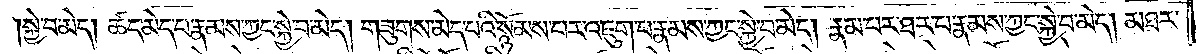སྐྱེ་བ་མེད། ཚད་མེད་པ་རྣམས་ཀྱང་སྐྱེ་བ་མེད། གཟུགས་མེད་པའི་སྙོམས་པར་འཇུག་པ་རྣམས་ཀྱང་སྐྱེ་བ་མེད། རྣམ་པར་ཐར་པ་རྣམས་ཀྱང་སྐྱེ་བ་མེད། མཐར་
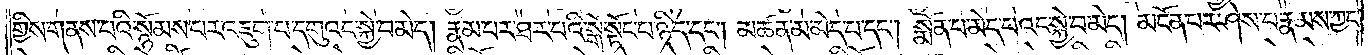གྱིས་གནས་པའི་སྙོམས་པར་འཇུག་པ་དགུའང་སྐྱེ་བ་མེད། རྣམ་པར་ཐར་པའི་སྒོ་སྟོང་པ་ཉིད་དང༌། མཚན་མ་མེད་པ་དང༌། སྨོན་པ་མེད་པའང་སྐྱེ་བ་མེད། མངོན་པར་ཤེས་པ་རྣམས་ཀྱང་
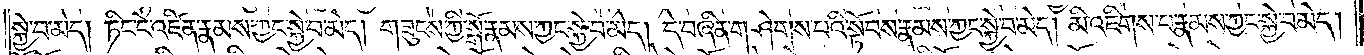སྐྱེ་བ་མེད། ཏིང་ངེ་འཛིན་རྣམས་ཀྱང་སྐྱེ་བ་མེད། གཟུངས་ཀྱི་སྒོ་རྣམས་ཀྱང་སྐྱེ་བ་མེད། དེ་བཞིན་གཤེགས་པའི་སྟོབས་རྣམས་ཀྱང་སྐྱེ་བ་མེད། མི་འཇིགས་པ་རྣམས་ཀྱང་སྐྱེ་བ་མེད།
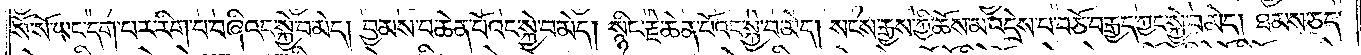སོ་སོ་ཡང་དག་པར་རིག་པ་བཞིའང་སྐྱེ་བ་མེད། བྱམས་པ་ཆེན་པོའང་སྐྱེ་བ་མེད། སྙིང་རྗེ་ཆེན་པོའང་སྐྱེ་བ་མེད། སངས་རྒྱས་ཀྱི་ཆོས་མ་འདྲེས་པ་བཅོ་བརྒྱད་ཀྱང་སྐྱེ་བ་མེད། ཐམས་ཅད་
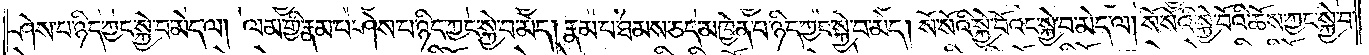ཤེས་པ་ཉིད་ཀྱང་སྐྱེ་བ་མེད་ལ། ལམ་གྱི་རྣམ་པ་ཤེས་པ་ཉིད་ཀྱང་སྐྱེ་བ་མེད་རྣམ་པ་ཐམས་ཅད་མཁྱེན་པ་ཉིད་ཀྱང་སྐྱེ་བ་མེད། སོ་སོའི་སྐྱེ་བོའང་སྐྱེ་བ་མེད་ལ། སོ་སོའི་སྐྱེ་བོའི་ཆོས་ཀྱང་སྐྱེ་བ་
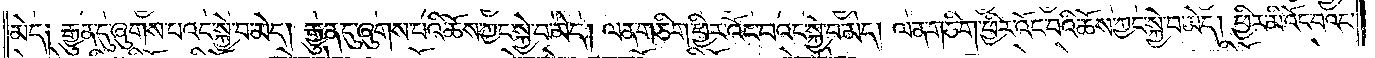མེད༏ རྒྱུན་དུ་ཞུགས་པའང་སྐྱེ་བ་མེད། རྒྱུན་དུ་ཞུགས་པའི་ཆོས་ཀྱང་སྐྱེ་བ་མེད། ལན་ཅིག་ཕྱིར་འོང་བའང་སྐྱེ་བ་མེད། ལན་ཅིག་ཕྱིར་འོང་བའི་ཆོས་ཀྱང་སྐྱེ་བ་མེད། ཕྱིར་མི་འོང་བའང་
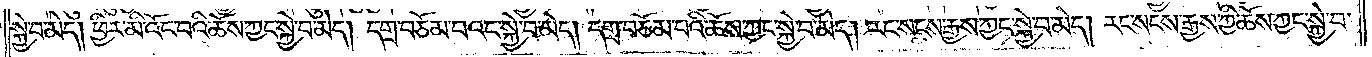སྐྱེ་བ་མེད། ཕྱིར་མི་འོང་བའི་ཆོས་ཀྱང་སྐྱེ་བ་མེད། དགྲ་བཅོམ་པའང་སྐྱེ་བ་མེད། དགྲ་བཅོམ་པའི་ཆོས་ཀྱང་སྐྱེ་བ་མེད། རང་སངས་རྒྱས་ཀྱང་སྐྱེ་བ་མེད། རང་སངས་རྒྱས་ཀྱི་ཆོས་ཀྱང་སྐྱེ་བ་
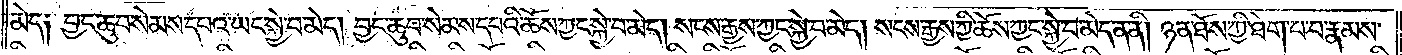མེད༏ བྱང་ཆུབ་སེམས་དཔའ་ཡང་སྐྱེ་བ་མེད། བྱང་ཆུབ་སེམས་དཔའི་ཆོས་ཀྱང་སྐྱེ་བ་མེད། སངས་རྒྱས་ཀྱང་སྐྱེ་བ་མེད། སངས་རྒྱས་ཀྱི་ཆོས་ཀྱང་སྐྱེ་བ་མེད་ན་ནི། ཉན་ཐོས་ཀྱི་ཐེག་པ་པ་རྣམས་
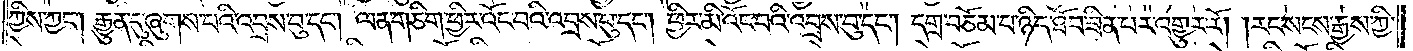ཀྱིས་ཀྱང༌། རྒྱུན་དུ་ཞུགས་པའི་འབྲས་བུ་དང༌། ལན་ཅིག་ཕྱིར་འོང་བའི་འབྲས་བུ་དང༌། ཕྱིར་མི་འོང་བའི་འབྲས་བུ་དང༌། དགྲ་བཅོམ་པ་ཉིད་ཐོབ་ཟིན་པར་འགྱུར་རོ། །རང་སངས་རྒྱས་ཀྱི་
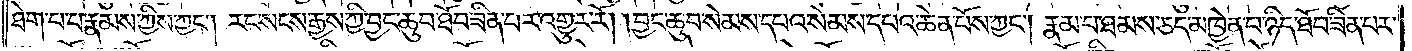ཐེག་པ་པ་རྣམས་ཀྱིས་ཀྱང༌། རང་སངས་རྒྱས་ཀྱི་བྱང་ཆུབ་ཐོབ་ཟིན་པར་འགྱུར་རོ། །བྱང་ཆུབ་སེམས་དཔའ་སེམས་དཔའ་ཆེན་པོས་ཀྱང༌། རྣམ་པ་ཐམས་ཅད་མཁྱེན་པ་ཉིད་ཐོབ་ཟིན་པར་
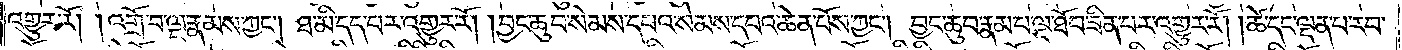འགྱུར་རོ། །འགྲོ་བ་ལྔ་རྣམས་ཀྱང༌། ཐ་མི་དད་པར་འགྱུར་རོ། །བྱང་ཆུབ་སེམས་དཔའ་སེམས་དཔའ་ཆེན་པོས་ཀྱང༌། བྱང་ཆུབ་རྣམ་པ་ལྔ་ཐོབ་ཟིན་པར་འགྱུར་རོ། །ཚེ་དང་ལྡན་པ་རབ་
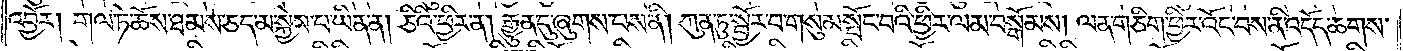འབྱོར། གལ་ཏེ་ཆོས་ཐམས་ཅད་མ་སྐྱེས་པ་ཡིན་ན། ཅིའི་ཕྱིར་ན། རྒྱུན་དུ་ཞུགས་པས་ནི། ཀུན་ཏུ་སྦྱོར་བ་གསུམ་སྤོང་བའི་ཕྱིར་ལམ་བསྒོམས། ལན་ཅིག་ཕྱིར་འོང་བས་ནི་འདོད་ཆགས་
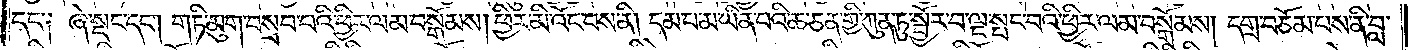དང༌༏ ཞེ་སྡང་དང༌། གཏི་མུག་བསྲབ་པའི་ཕྱིར་ལམ་བསྒོམས། ཕྱིར་མི་འོང་བས་ནི། དམ་པ་མ་ཡིན་པའི་ཆ་ཅན་གྱི་ཀུན་ཏུ་སྦྱོར་བ་ལྔ་སྤང་བའི་ཕྱིར་ལམ་བསྒོམས། དགྲ་བཅོམ་པས་ནི་བླ་
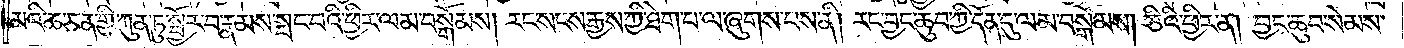མའི་ཆ་ཅན་གྱི་ཀུན་ཏུ་སྦྱོར་བ་རྣམས་སྤང་པའི་ཕྱིར་ལམ་བསྒོམས། རང་སངས་རྒྱས་ཀྱི་ཐེག་པ་ལ་ཞུགས་པས་ནི། རང་བྱང་ཆུབ་ཀྱི་དོན་དུ་ལམ་བསྒོམས། ཅིའི་ཕྱིར་ན། བྱང་ཆུབ་སེམས་
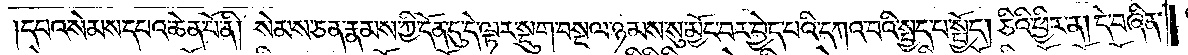དཔའ་སེམས་དཔའ་ཆེན་པོ་ནི། སེམས་ཅན་རྣམས་ཀྱི་དོན་དུ་དེ་ལྟར་སྡུག་བསྔལ་ཉམས་སུ་མྱོང་བར་བྱེད་ཅིང་དཀའ་བའི་སྤྱད་པ་སྤྱོད། ཅིའི་ཕྱིར་ན། དེ་བཞིན་
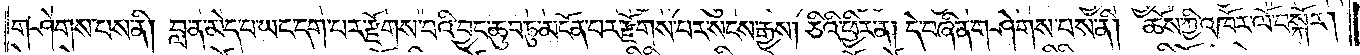གཤེགས་པས་ནི། བླ་ན་མེད་པ་ཡང་དག་པར་རྫོགས་པའི་བྱང་ཆུབ་ཏུ་མངོན་པར་རྫོགས་པར་སངས་རྒྱས། ཅིའི་ཕྱིར་ན། དེ་བཞིན་གཤེགས་པས་ནི། ཆོས་ཀྱི་འཁོར་ལོ་བསྐོར།
